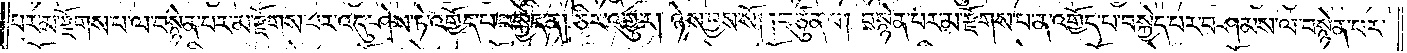པར་མ་རྫོགས་པ་ལ་བསྙེན་པར་མ་རྫོགས་པར་འདུ་ཤེས་ཏེ་འགྱོད་པ་བསྐྱེད་ན། ཅིར་འགྱུར། ཉེས་བྱས་སོ། །བཙུན་པ། བསྙེན་པར་མ་རྫོགས་པ་ན་འགྱོད་པ་བསྐྱེད་པར་བཤམས་ལ་བསྙེན་པར་
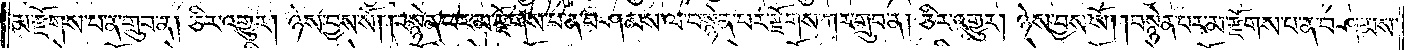མ་རྫོགས་པ་ན་གྲུབ་ན། ཅིར་འགྱུར། ཉེས་བྱས་སོ། །བསྙེན་པར་མ་རྫོགས་པ་ན་བཤམས་ལ་བསྙེན་པར་རྫོགས་ཀར་གྲུབ་ན། ཅིར་འགྱུར། ཉེས་བྱས་སོ། །བསྙེན་པར་མ་རྫོགས་པ་ན་བཤམས་
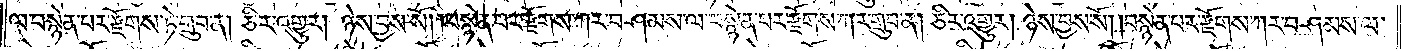ལ་བསྙེན་པར་རྫོགས་ཏེ་གྲུབ་ན། ཅིར་འགྱུར། ཉེས་བྱས་སོ། །བསྙེན་པར་རྫོགས་ཀར་བཤམས་ལ་བསྙེན་པར་རྫོགས་ཀར་གྲུབ་ན། ཅིར་འགྱུར། ཉེས་བྱས་སོ། །བསྙེན་པར་རྫོགས་ཀར་བཤམས་ལ་
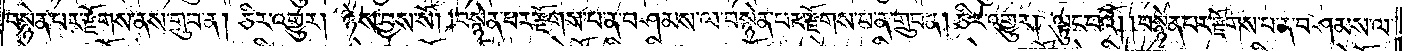བསྙེན་པར་རྫོགས་ནས་གྲུབ་ན། ཅིར་འགྱུར། ཉེས་བྱས་སོ། །བསྙེན་པར་རྫོགས་པ་ན་བཤམས་ལ་བསྙེན་པར་རྫོགས་པ་ན་གྲུབ་ན། ཅིར་འགྱུར། ལྟུང་བའོ། །བསྙེན་པར་རྫོགས་པ་ན་བཤམས་ལ་
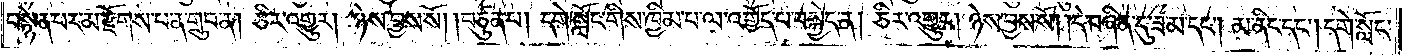བསྙེན་པར་མ་རྫོགས་པ་ན་གྲུབ་ན། ཅིར་འགྱུར། ཉེས་བྱས་སོ། །བཙུན་པ། དགེ་སློང་གིས་ཁྱིམ་པ་ལ་འགྱོད་པ་བསྐྱེད་ན། ཅིར་འགྱུར། ཉེས་བྱས་སོ། །དེ་བཞིན་དུ་ཟ་མ་དང༌། མ་ནིང་དང༌། དགེ་སློང་
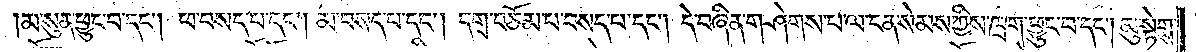མ་སུན་ཕྱུང་བ་དང༌། ཕ་བསད་པ་དང༌། མ་བསད་པ་དང༌། དགྲ་བཅོམ་པ་བསད་པ་དང༌། དེ་བཞིན་གཤེགས་པ་ལ་ངན་སེམས་ཀྱིས་ཁྲག་ཕྱུང་བ་དང༌། མུ་སྟེགས་
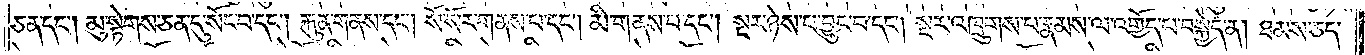ཅན་དང༌། མུ་སྟེགས་ཅན་དུ་སོང་བ་དང༌། རྐུན་གནས་དང༌། སོ་སོར་གནས་པ་དང༌། མི་གནས་པ་དང༌། སྔར་ཉེས་པ་བྱུང་བ་དང༌། སྔར་འཁྲུགས་པ་རྣམས་ལ་འགྱོད་པ་བསྐྱེད་ན། ཐམས་ཅད་
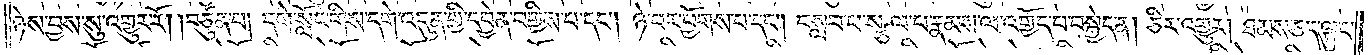ཉེས་བྱས་སུ་འགྱུར་རོ། །བཙུན་པ། དགེ་སློང་གིས་དགེ་འདུན་གྱི་དབྱེན་བགྱིས་པ་དང༌། ཉེ་བ་ཕྱོགས་པ་དང༌། བསླབ་པ་སྩལ་པ་རྣམས་ལ་འགྱོད་པ་བསྐྱེད་ན། ཅིར་འགྱུར། ཐམས་ཅད་ལྟུང་
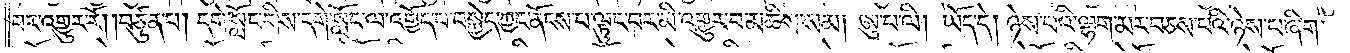བར་འགྱུར་རོ། །བཙུན་པ། དགེ་སློང་གིས་དགེ་སློང་ལ་འགྱོད་པ་བསྐྱེད་ཀྱང་ནོངས་པ་ལྟུང་བར་མི་འགྱུར་བ་མཆིས་སམ། ཨུ་པ་ལི། ཡོད་དེ། ཉེས་པའི་ལྷག་མར་བཅས་པའི་ཉེས་པ་ཞིག་
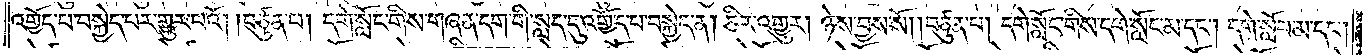འགྱོད་པ་བསྐྱེད་པར་གྱུར་བའོ། །བཙུན་པ། དགེ་སློང་གིས་གཞན་དག་གིས་སླད་དུ་འགྱོད་པ་བསྐྱེད་ན། ཅིར་འགྱུར། ཉེས་བྱས་སོ། །བཙུན་པ། དགེ་སློང་གིས་དགེ་སློང་མ་དང༌། དགེ་སློབ་མ་དང༌།
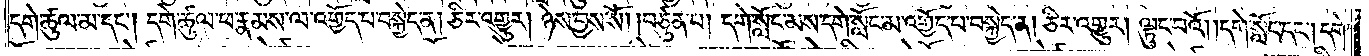དགེ་ཚུལ་མ་དང༌། དགེ་ཚུལ་ཕ་རྣམས་ལ་འགྱོད་པ་བསྐྱེད་ན། ཅིར་འགྱུར། ཉེས་བྱས་སོ། །བཙུན་པ། དགེ་སློང་མས་དགེ་སློང་མ་འགྱོད་པ་བསྐྱེད་ན། ཅིར་འགྱུར། ལྟུང་བའོ། །དགེ་སློང་དང༌། དགེ་
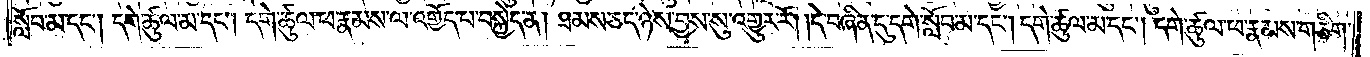སློབ་མ་དང༌། དགེ་ཚུལ་མ་དང༌། དགེ་ཚུལ་ཕ་རྣམས་ལ་འགྱོད་པ་བསྐྱེད་ན། ཐམས་ཅད་ཉེས་བྱས་སུ་འགྱུར་རོ། །དེ་བཞིན་དུ་དགེ་སློབ་མ་དང༌། དགེ་ཚུལ་མ་དང༌། དགེ་ཚུལ་ཕ་རྣམས་གཅིག་
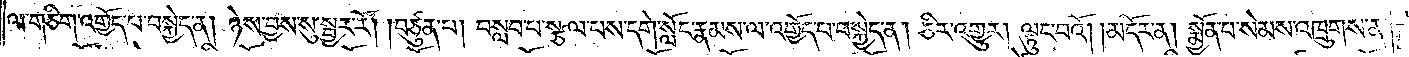ལ་གཅིག་འགྱོད་པ་བསྐྱེད་ན། ཉེས་བྱས་སུ་སྦྱར་རོ། །བཙུན་པ། བསླབ་པ་སྩལ་པས་དགེ་སློང་རྣམས་ལ་འགྱོད་པ་བསྐྱེད་ན། ཅིར་འགྱུར། ལྟུང་བའོ།    །མདོར་ན། སྨྱོན་པ་སེམས་འཁྲུགས་ན་
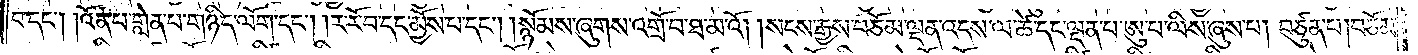བ་དང༌། །འོན་པ་གླེན་པ་གཉིད་ལོག་དང༌། །ར་རོ་བ་དང་མྱོས་པ་དང༌། །སྙོམས་ཞུགས་འགྲོ་བ་ཐ་མ་འོ། །སངས་རྒྱས་བཅོམ་ལྡན་འདས་ལ་ཚེ་དང་ལྡན་པ་ཨུ་པ་ལིས་ཞུས་པ། བཙུན་པ། བཅོམ་
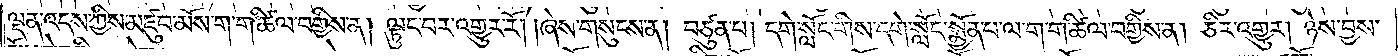ལྡན་འདས་ཀྱིས་མཛུབ་མོས་ག་ག་ཚིལ་བགྱིས་ན། ལྟུང་བར་འགྱུར་རོ། །ཞེས་གསུངས་ན། བཙུན་པ། དགེ་སློང་གིས་དགེ་སློང་སྨྱོན་པ་ལ་ག་ག་ཚིལ་བགྱིས་ན། ཅིར་འགྱུར། ཉེས་བྱས་
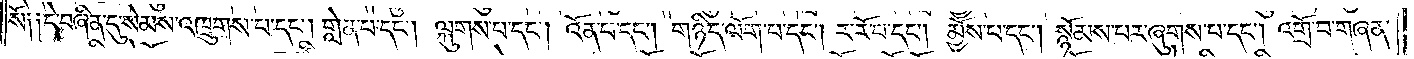སོ༑ ༑དེ་བཞིན་དུ་སེམས་འཁྲུགས་པ་དང༌། གླེན་པ་དང༌། ལྐུགས་པ་དང༌། འོན་པ་དང༌། གཉིད་ལོག་པ་དང༌། ར་རོ་བ་དང༌། མྱོས་པ་དང༌། སྙོམས་པར་ཞུགས་པ་དང༌། འགྲོ་བ་གཞན་
